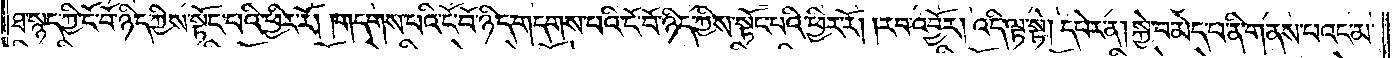ཐ་སྙད་ཀྱི་ངོ་བོ་ཉིད་ཀྱིས་སྟོང་པའི་ཕྱིར་རོ། །གདགས་པའི་ངོ་བོ་ཉིད་གདགས་པའི་ངོ་བོ་ཉིད་ཀྱིས་སྟོང་པའི་ཕྱིར་རོ། །རབ་འབྱོར། འདི་ལྟ་སྟེ། དཔེར་ན། སྐྱེ་བ་མེད་པ་ནི་གནས་པའང་མ་
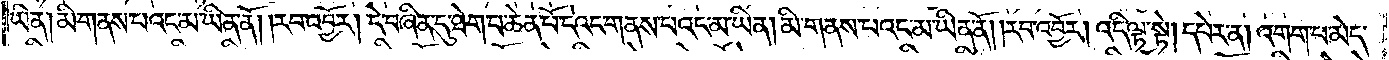ཡིན། མི་གནས་པའང་མ་ཡིན་ནོ། །རབ་འབྱོར། དེ་བཞིན་དུ་ཐེག་པ་ཆེན་པོ་དེའང་གནས་པའང་མ་ཡིན། མི་གནས་པའང་མ་ཡིན་ནོ། །རབ་འབྱོར། འདི་ལྟ་སྟེ། དཔེར་ན། འགག་པ་མེད་
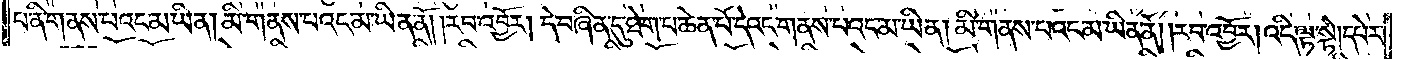པ་ནི་གནས་པའང་མ་ཡིན། མི་གནས་པའང་མ་ཡིན་ནོ། །རབ་འབྱོར། དེ་བཞིན་དུ་ཐེག་པ་ཆེན་པོ་དེའང་གནས་པའང་མ་ཡིན། མི་གནས་པའང་མ་ཡིན་ནོ། །རབ་འབྱོར། འདི་ལྟ་སྟེ། དཔེར་
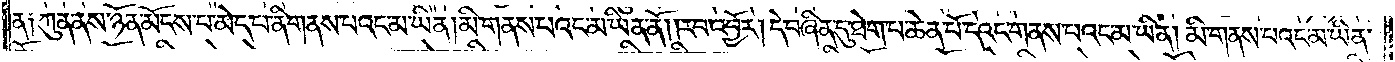ན༑ ཀུན་ནས་ཉོན་མོངས་པ་མེད་པ་ནི། གནས་པའང་མ་ཡིན། མི་གནས་པའང་མ་ཡིན་ནོ། །རབ་འབྱོར། དེ་བཞིན་དུ་ཐེག་པ་ཆེན་པོ་དེའང་གནས་པའང་མ་ཡིན། མི་གནས་པའང་མ་ཡིན་
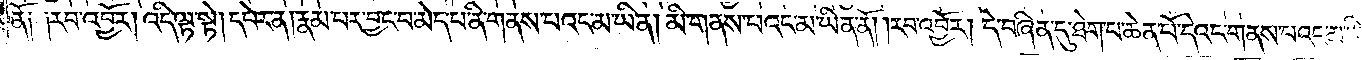ནོ༑ ༑རབ་འབྱོར། འདི་ལྟ་སྟེ། དཔེར་ན། རྣམ་པར་བྱང་བ་མེད་པ་ནི་གནས་པའང་མ་ཡིན། མི་གནས་པའང་མ་ཡིན་ནོ། །རབ་འབྱོར། དེ་བཞིན་དུ་ཐེག་པ་ཆེན་པོ་དེའང་གནས་པའང་མ་ཡིན།
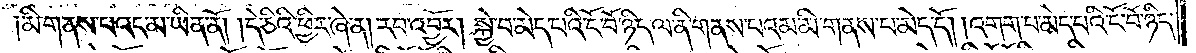མི་གནས་པའང་མ་ཡིན་ནོ། །དེ་ཅིའི་ཕྱིར་ཞེ་ན། རབ་འབྱོར། སྐྱེ་བ་མེད་པའི་ངོ་བོ་ཉིད་ལ་ནི་གནས་པའམ་མི་གནས་པ་མེད་དོ། །འགག་པ་མེད་པའི་ངོ་བོ་ཉིད་
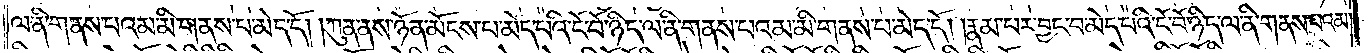ལ་ནི་གནས་པའམ་མི་གནས་པ་མེད་དོ། །ཀུན་ནས་ཉོན་མོངས་པ་མེད་པའི་ངོ་བོ་ཉིད་ལ་ནི་གནས་པའམ་མི་གནས་པ་མེད་དོ། །རྣམ་པར་བྱང་བ་མེད་པའི་ངོ་བོ་ཉིད་ལ་ནི་གནས་པའམ་
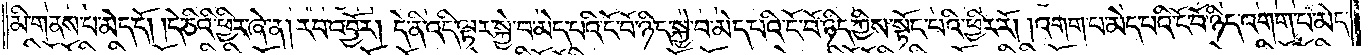མི་གནས་པ་མེད་དོ། །དེ་ཅིའི་ཕྱིར་ཞེ་ན། རབ་འབྱོར། དེ་ནི་འདི་ལྟར་སྐྱེ་བ་མེད་པའི་ངོ་བོ་ཉིད་སྐྱེ་བ་མེད་པའི་ངོ་བོ་ཉིད་ཀྱིས་སྟོང་པའི་ཕྱིར་རོ། །འགག་པ་མེད་པའི་ངོ་བོ་ཉིད་འགག་པ་མེད་
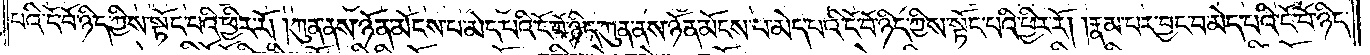པའི་ངོ་བོ་ཉིད་ཀྱིས་སྟོང་པའི་ཕྱིར་རོ། །ཀུན་ནས་ཉོན་མོངས་པ་མེད་པའི་ངོ་བོ་ཉིད་ཀུན་ནས་ཉོན་མོངས་པ་མེད་པའི་ངོ་བོ་ཉིད་ཀྱིས་སྟོང་པའི་ཕྱིར་རོ། །རྣམ་པར་བྱང་བ་མེད་པའི་ངོ་བོ་ཉིད་
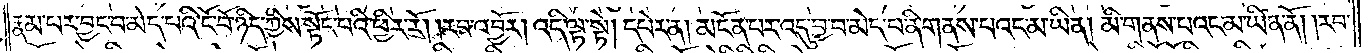རྣམ་པར་བྱང་བ་མེད་པའི་ངོ་བོ་ཉིད་ཀྱིས་སྟོང་པའི་ཕྱིར་རོ། །རབ་འབྱོར། འདི་ལྟ་སྟེ། དཔེར་ན། མངོན་པར་འདུ་བྱ་བ་མེད་པ་ནི་གནས་པའང་མ་ཡིན། མི་གནས་པའང་མ་ཡིན་ནོ། །རབ་
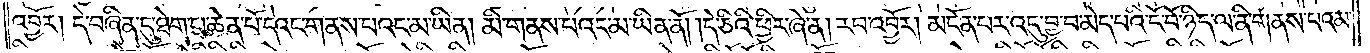འབྱོར། དེ་བཞིན་དུ་ཐེག་པ་ཆེན་པོ་དེའང་གནས་པའང་མ་ཡིན། མི་གནས་པའང་མ་ཡིན་ནོ། །དེ་ཅིའི་ཕྱིར་ཞེ་ན། རབ་འབྱོར། མངོན་པར་འདུ་བྱ་བ་མེད་པའི་ངོ་བོ་ཉིད་ལ་ནི་གནས་པའམ་
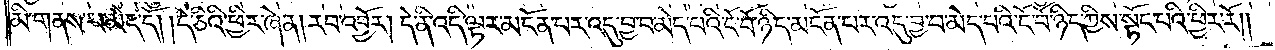མི་གནས་པ་མེད་དོ། །དེ་ཅིའི་ཕྱིར་ཞེ་ན། རབ་འབྱོར། དེ་ནི་འདི་ལྟར་མངོན་པར་འདུ་བྱ་བ་མེད་པའི་ངོ་བོ་ཉིད་མངོན་པར་འདུ་བྱ་བ་མེད་པའི་ངོ་བོ་ཉིད་ཀྱིས་སྟོང་པའི་ཕྱིར་རོ༎
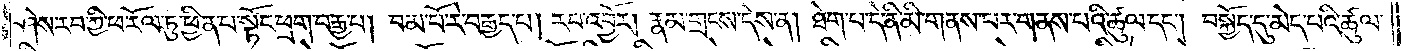ཤེས་རབ་ཀྱི་ཕ་རོལ་ཏུ་ཕྱིན་པ་སྟོང་ཕྲག་བརྒྱ་པ། །བམ་པོ་རེ་བརྒྱད་པ། །རབ་འབྱོར། རྣམ་གྲངས་དེས་ན། ཐེག་པ་དེ་ནི་མི་གནས་པར་གནས་པའི་ཚུལ་དང༌། བསྐྱོད་དུ་མེད་པའི་ཚུལ་
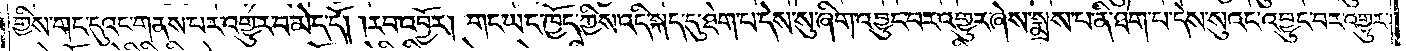གྱིས་གང་དུའང་གནས་པར་འགྱུར་བ་མེད་དོ། །རབ་འབྱོར། གང་ཡང་ཁྱོད་ཀྱིས་འདི་སྐད་དུ་ཐེག་པ་དེས་སུ་ཞིག་འབྱུང་བར་འགྱུར་ཞེས་སྨྲས་པ་ནི་ཐེག་པ་དེས་སུའང་འབྱུང་བར་འགྱུར་
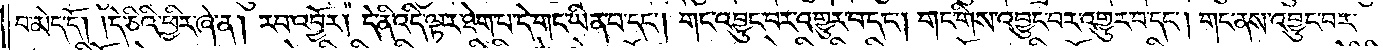བ་མེད་དོ། །དེ་ཅིའི་ཕྱིར་ཞེ་ན། རབ་འབྱོར། དེ་ནི་འདི་ལྟར་ཐེག་པ་དེ་གང་ཡིན་པ་དང༌། གང་འབྱུང་བར་འགྱུར་བ་དང༌། གང་གིས་འབྱུང་བར་འགྱུར་བ་དང༌། གང་ནས་འབྱུང་བར་
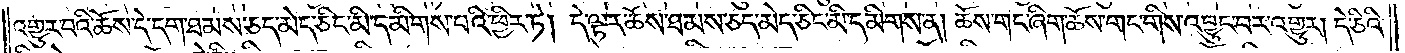འགྱུར་བའི་ཆོས་དེ་དག་ཐམས་ཅད་མེད་ཅིང་མི་དམིགས་པའི་ཕྱིར་ཏེ། དེ་ལྟར་ཆོས་ཐམས་ཅད་མེད་ཅིང་མི་དམིགས་ན། ཆོས་གང་ཞིག་ཆོས་གང་གིས་འབྱུང་བར་འགྱུར། དེ་ཅིའི་
